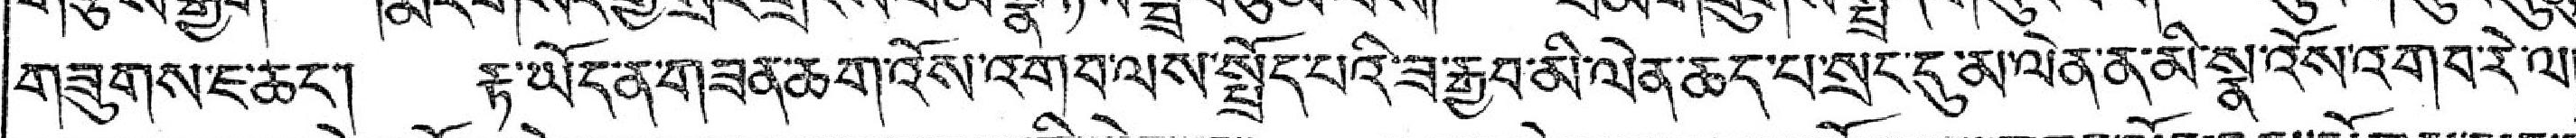གཟུགས་ཇ་ཚང་། རྟ་ཡོད་ན་གཟན་ཆག་འོས་འགབ་ལས་སྤྲོད་པའི་ཟ་རྒྱབ་མི་ལེན་ཆད་པ་སྲང་དུ་མ་ལེན་ན་མི་སྣ་འོས་འགབ་རེ་ལ།
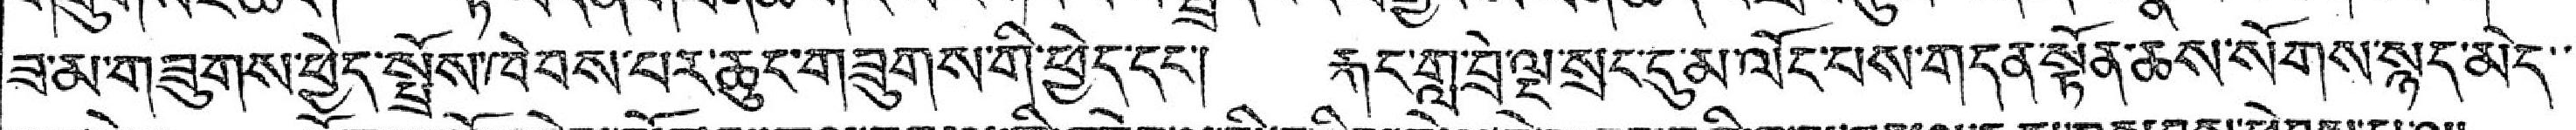ཟ་མ་གཟུགས་ཕྱེད་སྤྲོས་ཁེབས་པར་ཆུང་གཟུགས་གི་ཕྱེད་དང་། རྐང་གླ་བྲེ་ལྟ་སྲང་དུ་མ་ལོང་པས་གདན་སྟོན་ཆས་སོགས་སྙད་མེད་་་
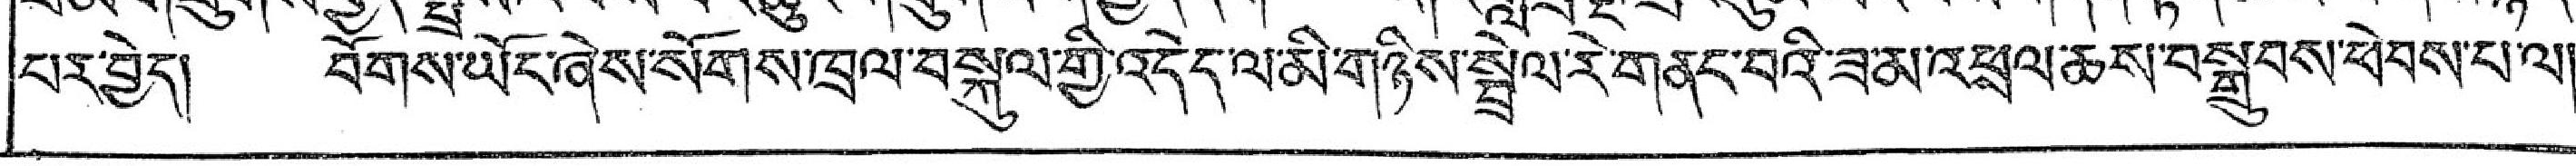པར་བྱེད། བོགས་ཡོང་ཞེས་སོགས་ཁྲལ་བསྐུལ་གྱི་འདེད་ལ་མི་གཉིས་སྦྲེལ་རེ་གནང་བའི་ཟ་མ་འཕྲལ་ཆས་བསྒྲུབས་ཕེབས་པ་ལ།
